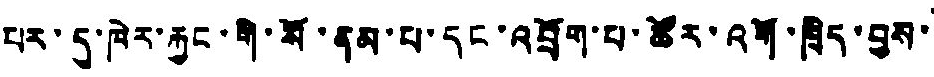པར་དུ་ཁེར་རྐྱང་གི་སོ་ནམ་པ་དང་འབྲོག་པ་ཚོར་འགོ་ཁྲིད་བྱས་
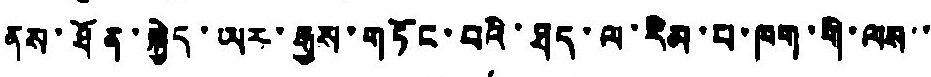ནས་ཐོན་སྐྱེད་ཡར་རྒྱས་གཏོང་བའི་ཐད་ལ་རིམ་པ་ཁག་གི་ལས་་
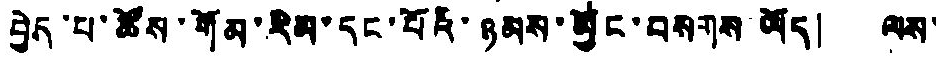བྱེད་པ་ཚོས་གོམ་རིམ་དང་པོའི་ཉམས་མྱིང་བསགས ཡོད། ལས་
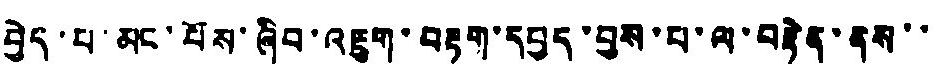བྱེད་པ་མང་པོས་ཞིབ་འཇུག་བརྟག་དཔྱད་བྱས་པ་ལ་བརྟེན་ནས་་
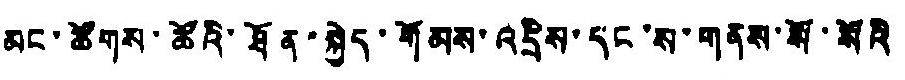མང་ཚོགས་ཚོའི་ཐོན་སྐྱེད་སོམས་འདྲིས་དང་ས་གནས་སོ་སོའི
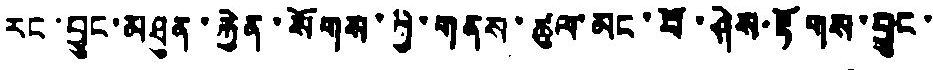རང་བྱུང་མཐུན་རྐྱེན་སོགས་ཀྱི་གནས་ཚུལ་མང་བོ་ཤེས་རྟོགས་བྱུང་
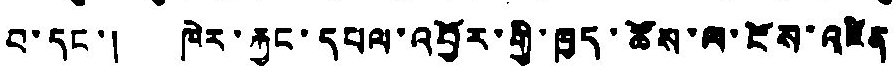བ་དང་། ཁེར་རྐྱང་དཔལ་འབྱོར་གྱི་ཁྱད་ཚོས་ལ་ངོས་འཛིན
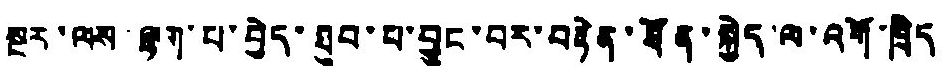སྔར་ལས ལྷག་པ་བྱེད་ཐུབ་པ་བྱུང་བར་བརྟེན་ཐོན་སྐྱེད་ལ་འགོ་ཁྲིད
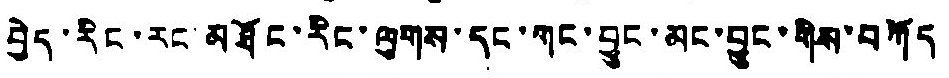བྱེད་རིང་རང་མཐོང་རིང་ལུགས་དང་གང་བྱུང་མང་བྱུང་གིས་བཀོད
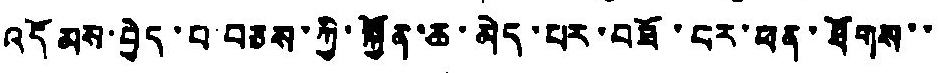འདོམས་བྱེད་པ་བཅས་ཀྱི་སྐྱོན་ཆ་མེད་པར་བཟོ་པར་ཕན་ཐོགས་་
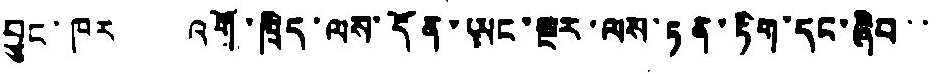བྱུང་ཁར འགོ་ཁྲིད་ལས་དོན་ཡང་སྔར་ལས་རྟན་ཏིག་དང་ཞིབ་་
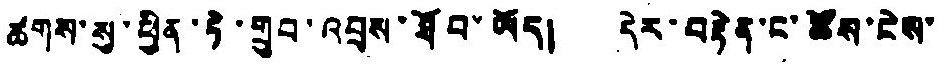ཚགས་སུ་ཕྱིན་ཏེ་གྲུབ་འབྲས་ཐོབ་ཡོད། དེར་བརྟེན་ང་ཚོས་ངེས་
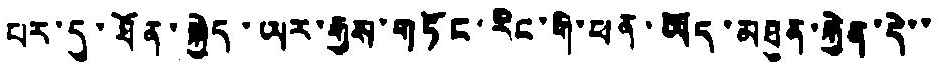པར་དུ་ཐོན་སྐྱེད་ཡར་རྒྱས་གཏོང་རིང་གི་ཕན་ཡོད་མཐུན་རྐྱེན་དེ་་
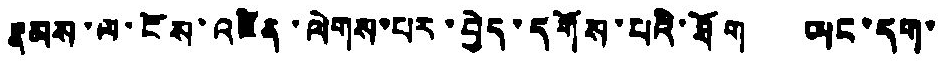རྣམས་ལ་ངོས་འཛིན་ལེགས་པར་བྱེད་དགོས་པའི་ཐོག ཡང་དག
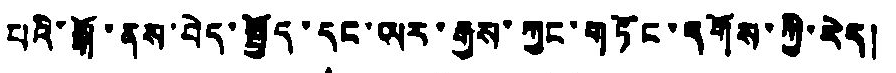པའི་སྒོ་ནས་བེད་སྤྱོད་དང་ཡར་རྒྱས་ཀྱང་གཏོང་དགོས་ཀྱི་རེད།
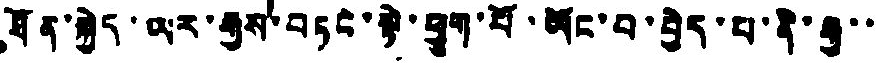ཐོན་སྐྱེད་ཡར་རྒྱས་བཏང་སྟེ་ཕྱུག་པོ་ཡོང་བ་བྱེད་པ་ནི་རྒྱ་་
